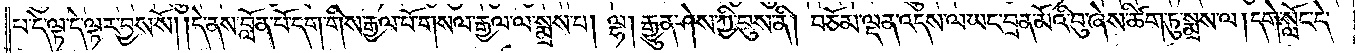པ་དེ་ལྟ་དེ་ལྟར་བྱས་སོ། །དེ་ནས་བློན་པོ་དག་གིས་རྒྱལ་པོ་གསལ་རྒྱལ་ལ་སྨྲས་པ། ལྷ། རྒྱུན་ཤེས་ཀྱི་བུས་ནི། བཅོམ་ལྡན་འདས་ལ་ཡང་བྲན་མོའི་བུ་ཞེས་ཚིག་ཏུ་སྨྲས་ལ། དགེ་སློང་དེ་
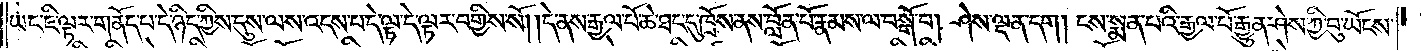ཡང་ཇི་ལྟར་གནོད་པ་དེ་ཉིད་ཀྱིས་དུས་ལས་འདས་པ་དེ་ལྟ་དེ་ལྟར་བགྱིས་སོ། །དེ་ནས་རྒྱལ་པོ་ཆེ་ཐང་དུ་ཁྲོས་ནས་བློན་པོ་རྣམས་ལ་བསྒོ་བ། ཤེས་ལྡན་དག །ངས་སྨན་པའི་རྒྱལ་པོ་རྒྱུན་ཤེས་ཀྱི་བུ་ཡོངས་
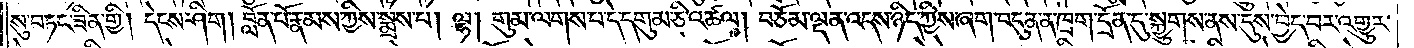སུ་བཏང་ཟིན་གྱི། དེངས་ཤིག། བློན་པོ་རྣམས་ཀྱིས་སྨྲས་པ། ལྷ། གུམ་ལགས་པ་དེ་དགུམ་ཅི་འཚལ། བཅོམ་ལྡན་འདས་ཉིད་ཀྱིས་ཞག་བདུན་ན་ཁྲག་དྲོད་དུ་སྐྱུགས་ནས་དུས་བྱེད་པར་འགྱུར་
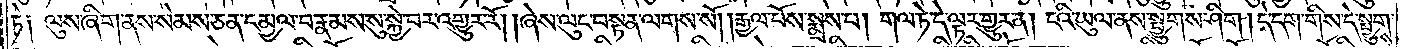ཏེ༑ ལུས་ཞིག་ནས་སེམས་ཅན་དམྱལ་བ་རྣམས་སུ་སྐྱེ་བར་འགྱུར་རོ། །ཞེས་ལུང་བསྟན་ལགས་སོ། །རྒྱལ་པོས་སྨྲས་པ། གལ་ཏེ་དེ་ལྟར་གྱུར་ན། ངའི་ཡུལ་ནས་སྤྱུགས་ཤིག །དེ་དག་གིས་དེ་སྤྱུགས་
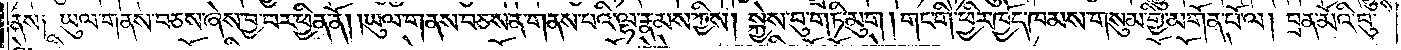ནས། ཡུལ་གནས་བཅས་ཞེས་བྱ་བར་ཕྱིན་ནོ། །ཡུལ་གནས་བཅས་ན་གནས་པའི་ལྷ་རྣམས་ཀྱིས། སྐྱེས་བུ་གཏི་མུག། གང་གི་ཕྱིར་ཁྱོད་ཁམས་གསུམ་གྱི་མགོན་པོ་ལ། བྲན་མོའི་བུ་
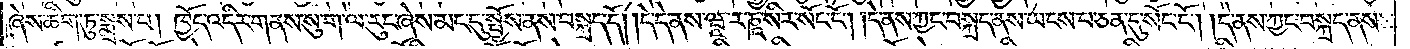ཞེས་ཚིག་ཏུ་སྨྲས་པ། ཁྱོད་འདིར་གནས་སུ་ག་ལ་རུང་ཞེས་མང་དུ་སྤྱོས་ནས་བསྐྲད་དོ། །དེ་དེ་ནས་ཝཱ་ར་ཎཱ་སིར་སོང་ངོ༌། །དེ་ནས་ཀྱང་བསྐྲད་ནས་ཡངས་པ་ཅན་དུ་སོང་ངོ༌། །དེ་ནས་ཀྱང་བསྐྲད་ནས་
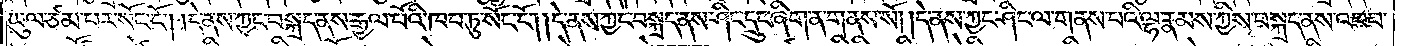ཡུལ་ཙམ་པར་སོང་ངོ༌། །དེ་ནས་ཀྱང་བསྐྲད་ནས་རྒྱལ་པོའི་ཁབ་ཏུ་སོང་ངོ༌། །དེ་ནས་ཀྱང་བསྐྲད་ནས་ཤིང་དྲུང་ཞིག་ན་གནས་སོ། །དེ་ནས་ཀྱང་ཤིང་ལ་གནས་པའི་ལྷ་རྣམས་ཀྱིས་བསྐྲད་ནས་འབབ་
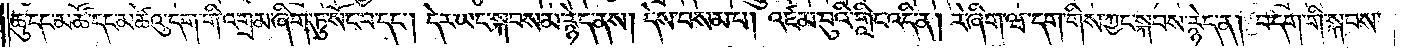ཆུ་དང་མཚོ་དང་མཚེའུ་དག་གི་འགྲམ་ཞིག་ཏུ་སོང་བ་དང༌། དེར་ཡང་སྐབས་མ་རྙེད་ནས། དེས་བསམ་པ། འཛམ་བུའི་གླིང་འདི་ན། རེ་ཞིག་ཝ་དག་གིས་ཀྱང་སྐབས་རྙེད་ན། བདག་གི་སྐབས་
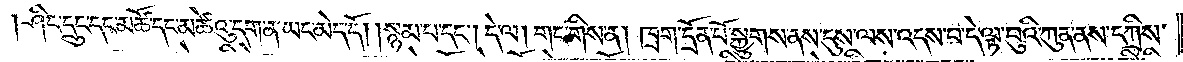ཤིང་དྲུང་དང་མཚོ་དང་མཚེའུ་དག་ན་ཡང་མེད་དོ། །སྙམ་པ་དང༌། དེ་ལ། གང་གིས་ན། ཁྲག་དྲོན་པོ་སྐྱུགས་ནས་དུས་ལས་འདས་པ་དེ་ལྟ་བུའི་ཀུན་ནས་དཀྲིས་
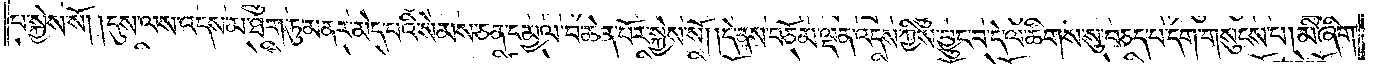པ་སྐྱེས་སོ། །དུས་ལས་འདས་མ་ཐག་ཏུ་མནར་མེད་པའི་སེམས་ཅན་དམྱལ་བ་ཆེན་པོར་སྐྱེས་སོ། །དེ་ནས་བཅོམ་ལྡན་འདས་ཀྱིས་བྱུང་བ་དེ་ལ་ཚིགས་སུ་བཅད་པ་དག་གསུངས་པ། མི་ཞིག་
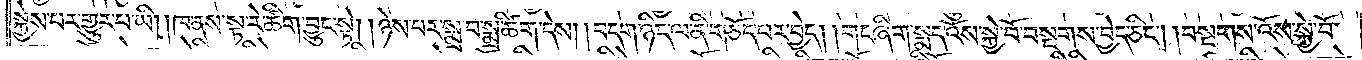སྐྱེས་པར་གྱུར་པ་ཡི། །ཁ་ནས་སྟ་རེ་ཚིག་བྱུང་སྟེ། །ཉེས་པར་སྨྲ་བ་སྨྲ་ཚིག་དེས། །བདག་ཉིད་ལ་ནི་གཅོད་པར་བྱེད། །གང་ཞིག་སྨད་འོས་སྐྱེ་པོ་བསྔགས་བྱེད་ཅིང༌། །བསྔགས་འོས་སྐྱེ་བོ་
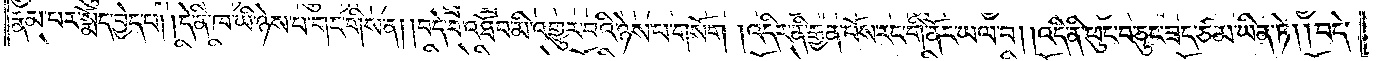རྣམ་པར་སྨོད་བྱེད་པ། །དེ་ནི་ཁ་ཡི་ཉེས་པ་གང་གིས་ན། །བདེ་བ་འཐོབ་མི་འགྱུར་བའི་ཉེས་པ་གསོག །འདིར་ནི་རྒྱན་པོས་རང་གི་ནོར་ཡལ་བ། །འདི་ནི་ཕུང་བ་ཅུང་ཟད་ཙམ་ཡིན་ཏེ། །བདེ་
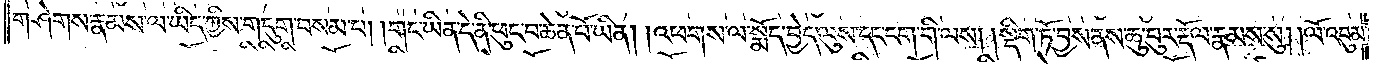གཤེགས་རྣམས་ལ་ཡིད་ཀྱིས་གདུག་བསམ་པ། །གང་ཡིན་དེ་ནི་ཕུང་བ་ཆེན་པོ་ཡིན། །འཕགས་ལ་སྨོད་བྱེད་ལུས་དང་ངག་གི་ལས། །སྡིག་ཏོ་བྱས་ནས་ཆུ་བུར་རྡོལ་རྣམས་སུ། །ལོ་འབུམ་
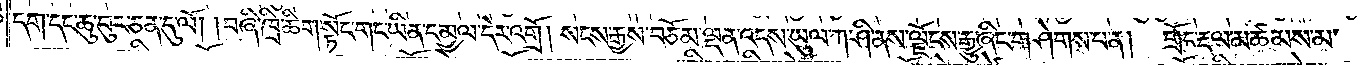དག་དང་ཆུ་བུར་ཅན་དུ་ལོ། །བཞི་ཁྲི་ཚིག་སྟོང་གང་ཡིན་དམྱལ་དེར་འགྲོ། །སངས་རྒྱས་བཅོམ་ལྡན་འདས་ཡུལ་ཀ་ཤི་ནས་ལྗོངས་རྒྱུ་ཞིང་གཤེགས་པ་ན། གྲོང་རྡལ་མཚམས་མ་
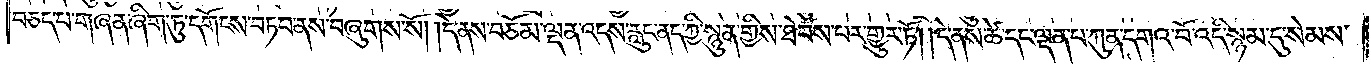བཅད་པ་གཞན་ཞིག་ཏུ་དགོངས་བཏབ་ནས་བཞུགས་སོ། །དེ་ནས་བཅོམ་ལྡན་འདས་རླུང་ནད་ཀྱི་སྙུན་གྱིས་ཐེབས་པར་གྱུར་ཏོ། །དེ་ནས་ཚེ་དང་ལྡན་པ་ཀུན་དགའ་བོ་འདི་སྙམ་དུ་སེམས་
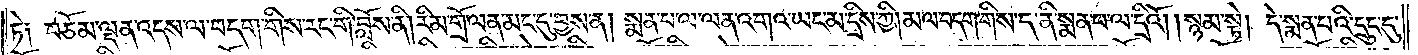ཏེ༑ བཅོམ་ལྡན་འདས་ལ་བདག་གིས་རང་གི་བློས་ནི།རིམ་གྲོ་ལན་མང་དུ་བྱས་ན། སྨན་པ་ལ་ལན་འགའ་ཡང་མ་དྲིས་ཀྱི།མ་ལ་བདག་གིས་ད་ནི་སྨན་པ་ལ་དྲིའོ། །སྙམ་སྟེ། དེ་སྨན་པའི་དྲུང་དུ་
